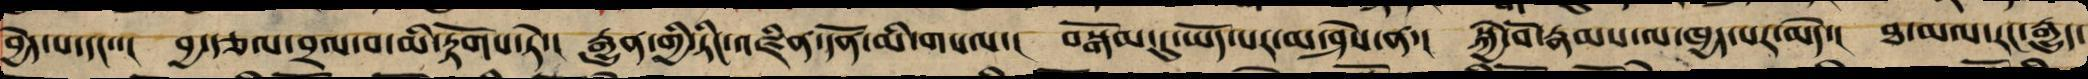བྱེད་པ་དང་་། བྱ་རྩོལ་བྲལ་བ་མི་རྟོགས་ཏེ་། རྒྱུན་གྱི་ཏིང་འཛིན་དོན་མི་གསལ་། བསྒོམ་དུ་ཡོད་པར་མ་ཤེས་ན་། སྐྱེ་བོ་རྣམས་ལ་ཁྱད་པར་མེད་། ཐ་མལ་རང་རྒྱུད་
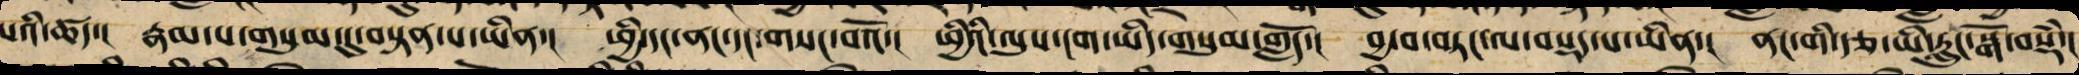པའི་ཚད་། རྣམ་པ་གསུམ་དུ་བསྟན་པ་ཡིན་། ཕྱི་དང་ནང་དང་གསང་བའོ་། ཕྱིའི་ལུས་ངག་ཡིད་གསུམ་གློད་། བྱ་བ་བཏང་ལ་བསྡད་པ་ཡིན་། ནང་གི་རྩ་ཡི་རླུང་སྒོ་བསྡཾ་།
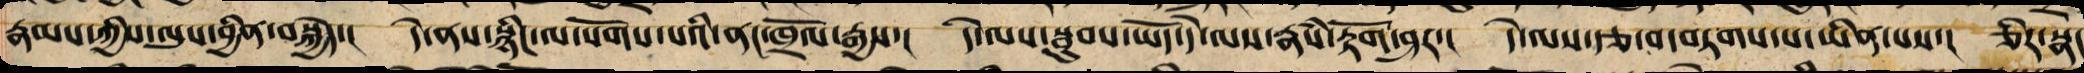རྣམས་ཀྱིས་ལུས་བྱིན་བསྐྱེད་། དེ་ནས་སྙིང་ལ་སོགས་པའི་ནང་ཁྲོལ་རྒྱས་། དེ་ལས་སྦུབས་ཡོད་དེ་ལས་རྣཾས་རྟོག་ཤར་། དེ་ལས་རྩ་བ་བཏགས་པ་ཡིན་པས་། ཅིར་སྣང
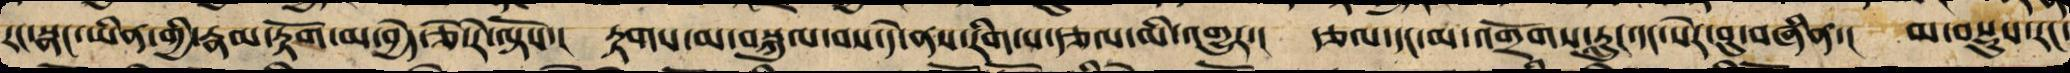རང་སྣང་ཡིན་གྱི་རྣམ་རྟོག་མ་བྱེད་ཅེ་རེ་ལྟོས་། རྟགས་མ་བསྐུལ་བས་དེ་ནས་རིག་པ་རྩལ་མི་འགྱུར་། རྩལ་དང་མ་འགྲོགས་རླུང་དང་སེར་བུ་བཞིན་། མ་བསྡུས་རང་
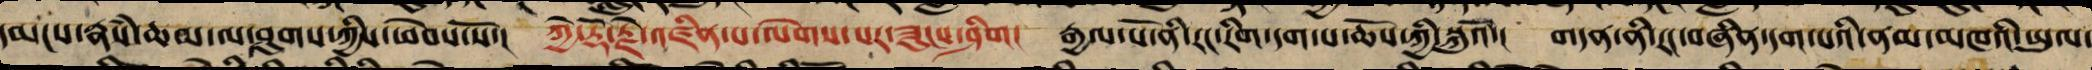དམངས་རྣཾས་ཆམ་ལ་ཤུགས་ཀྱིས་ཕེབས་སོ་། ཀྱེ་རྡོ་རྗེ་འཛིན་པ་ལེགས་པར་ཟུངས་ཤིག། རྒྱལ་པོ་ནི་རང་རིག་དག་པ་ཆོས་ཀྱི་སྐུའོ་། གདན་ནི་རང་བཞིན་དག་པའི་ནམ་མཁའི་ཡུལ་
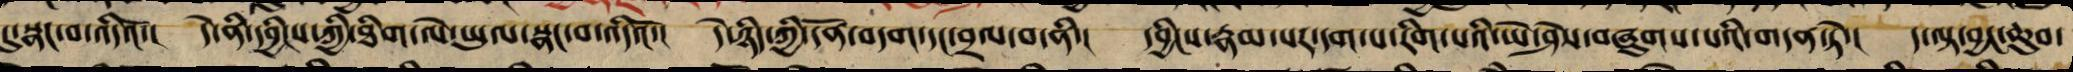དུ་སྣང་བ་འདིའོ་། དེ་ནི་དབྱིངས་ཀྱི་ཐིག་ལེ་ཡུལ་སྣང་བ་འདིའོ་། དེ་ཉིད་ཀྱི་དོན་བདག་དང་བྲལ་བ་ནི་། དབྱིངས་རྣམ་པར་དག་པ་རིག་པའི་ཡེ་ཤེས་བཞུགས་པའི་གདན་ཏེ་། ད་ལྟ་བྱང་ཆུབ་
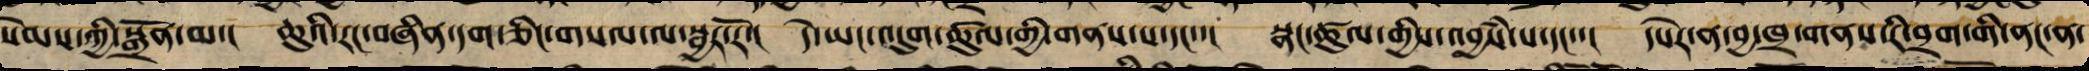སེམས་ཀྱི་སྒྲོན་མ་། ཆུའི་རང་བཞིན་དག་ཅིང་གསལ་ལ་སྦྱར་རོ་། དེ་ཡང་འདུག་ཚུལ་གྱི་གནས་པ་དང་་། སྣང་ཚུལ་གྱིས་འབྱཾས་པ་དང་་། དཔེར་ན་བྱ་ཁྲ་གནས་རི་བྲག་གི་ནང་ན་
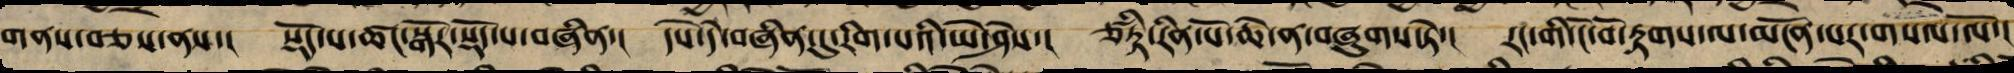གནས་བཅས་ནས་། སྡོད་ས་ཚང་སྒོར་སྡོད་པ་བཞིན་། དཔེ་དེ་བཞིན་དུ་རིག་པའི་ཡེ་ཤེས་། ཙིཏྟ་རིན་པོ་ཆེ་ན་བཞུགས་པ་ཏེ་། རང་གི་ངོ་བོ་རྟགས་ལ་མངོན་པར་གསལ་ལོ་།
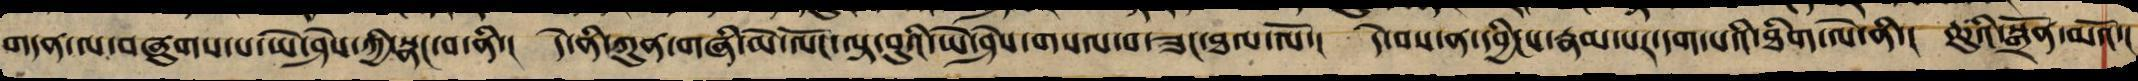གདན་ལ་བཞུགས་པ་ཡེ་ཤེས་ཀྱི་སྣང་བ་ནི་། དེ་ནི་ཀུན་གཞི་མེ་ལོང་ལྟ་བུའི་ཡེ་ཤེས་གསལ་བ་ཟང་ཐལ་ལོ་། དེ་བས་ན་དབྱིངས་རྣམ་པར་དག་པའི་ཐིག་ལེ་ནི་། ཆུའི་སྒྲོན་མའོ་།།
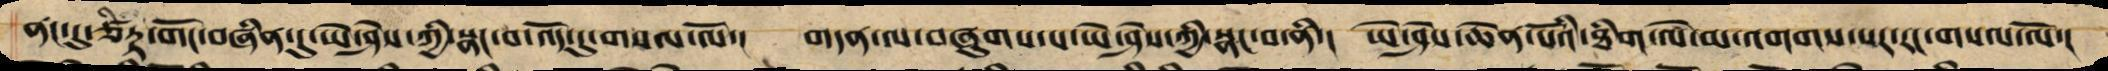ནང་དུ་ཙིཏྟ་གོང་བཞིན་དུ་ཡེ་ཤེས་ཀྱི་སྣང་བ་འོད་དུ་གསལ་ལོ་། གདན་ལ་བཞུགས་པ་ཡེ་ཤེས་ཀྱི་སྣང་བ་ནི་། ཡེ་ཤེས་ཆེན་པོའི་ཐིག་ལེ་མ་འགགས་པར་རང་གསལ་ལོ་།
